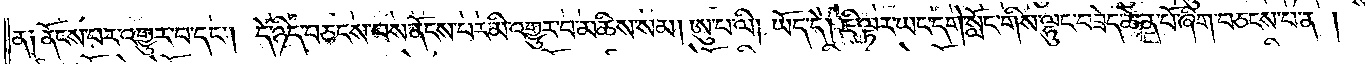ན༑ ནོངས་པར་འགྱུར་བ་དང༌། དེ་ཉིད་བཅངས་བས་ནོངས་པར་མི་འགྱུར་བ་མཆིས་སམ། ཨུ་པ་ལི། ཡོད་དེ། ཇི་ལྟར་ཡང་དགེ་སློང་གིས་ལྷུང་བཟེད་ཆེན་པོ་ཞིག་བཅངས་པ་ན།
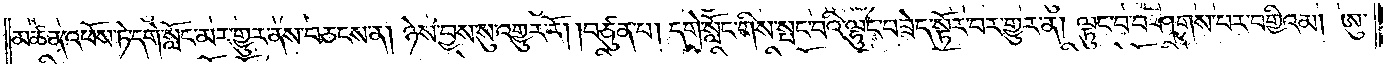མཚན་འཕོས་ཏེ་དགེ་སློང་མར་གྱུར་ནས་བཅངས་ན། ཉེས་བྱས་སུ་འགྱུར་རོ། །བཙུན་པ། དགེ་སློང་གིས་སྤང་བའི་ལྟུང་བཟེད་སྟོར་བར་གྱུར་ན། ལྟུང་བ་བཤགས་པར་བགྱིའམ། ཨུ་
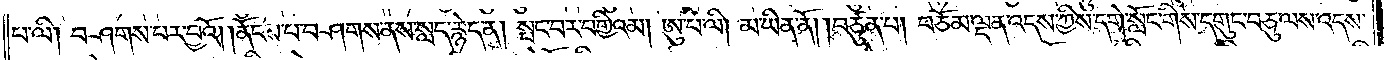པ་ལི། བཤགས་པར་བྱའོ། །ནོངས་པ་བཤགས་ནས་སླད་རྙེད་ན། སྤང་བར་བགྱིའམ། ཨུ་པ་ལི། མ་ཡིན་ནོ། །བཙུན་པ། བཅོམ་ལྡན་འདས་ཀྱིས་དགེ་སློང་གིས་དགུང་བཅུ་ལས་འདས་
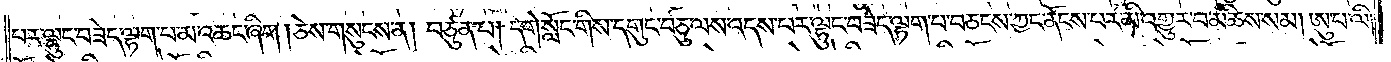པར་ལྷུང་བཟེད་ལྷག་པ་མ་འཆང་ཞིག །ཅེས་གསུངས་ན། བཙུན་པ། དགེ་སློང་གིས་དགུང་བཅུ་ལས་འདས་པར་ལྷུང་བཟེད་ལྷག་པ་བཅངས་ཀྱང་ནོངས་པར་མི་འགྱུར་བ་མཆིས་སམ། ཨུ་པ་ལི་
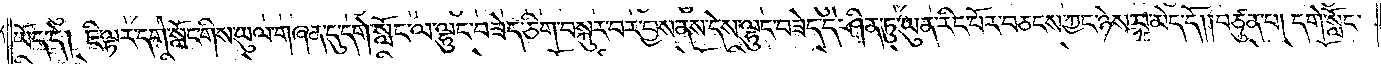ཡོད་དེ། ཇི་ལྟར་དགེ་སློང་གིས་ཡུལ་གཞན་དུ་དགེ་སློང་ལ་ལྷུང་བཟེད་ཅིག་བསྐུར་བར་བྱས་ནས་དེས་ལྷུང་བཟེད་དེ་ཤིན་ཏུ་ཡུན་རིང་པོར་བཅངས་ཀྱང་ཉེས་པ་མེད་དོ། །བཙུན་པ། དགེ་སློང་
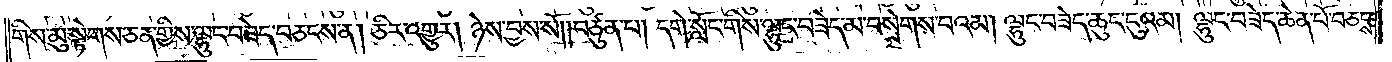གིས་མུ་སྟེགས་ཅན་གྱིས་ལྷུང་བཟེད་བཅངས་ན། ཅིར་འགྱུར། ཉེས་བྱས་སོ། །བཙུན་པ། དགེ་སློང་གིས་ལྷུང་བཟེད་མ་བསྲེགས་པའམ། ལྷུང་བཟེད་ཆུང་ངུའམ། ལྷུང་བཟེད་ཆེན་པོ་བཅངས་
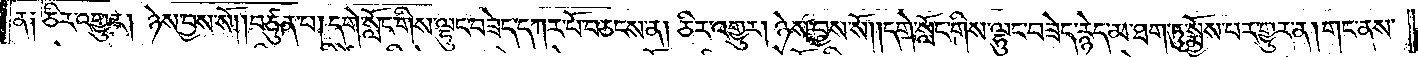ན༑ ཅིར་འགྱུར། ཉེས་བྱས་སོ། །བཙུན་པ། དགེ་སློང་གིས་ལྷུང་བཟེད་དཀར་པོ་བཅངས་ན། ཅིར་འགྱུར། ཉེས་བྱས་སོ། །དགེ་སློང་གིས་ལྷུང་བཟེད་རྙེད་མ་ཐག་ཏུ་སྨྱོས་པར་གྱུར་ན། གང་ནས་
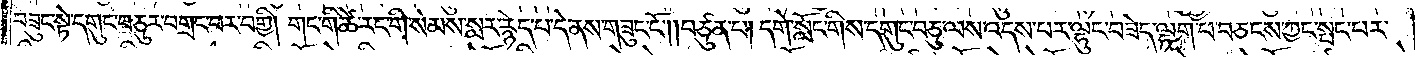བཟུང་སྟེ་དགུང་བཅུར་བགྲང་བར་བགྱི། གང་གི་ཚེ་རང་གི་སེམས་སླར་རྙེད་པ་དེ་ནས་གཟུང་ངོ༌། །བཙུན་པ། དགེ་སློང་གིས་དགུང་བཅུ་ལས་འདས་པར་ལྷུང་བཟེད་ལྷག་པ་བཅངས་ཀྱང་སྤང་པར་
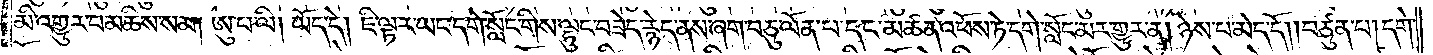མི་འགྱུར་བ་མཆིས་སམ། ཨུ་པ་ལི། ཡོད་དེ། ཇི་ལྟར་ཡང་དགེ་སློང་གིས་ལྷུང་བཟེད་རྙེད་ནས་ཞག་བཅུ་ལོན་པ་དང་མཚན་འཕོས་ཏེ་དགེ་སློང་མར་གྱུར་ན། ཉེས་པ་མེད་དོ། །བཙུན་པ། དགེ་
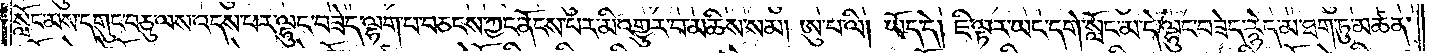སློང་མས་དགུང་བཅུ་ལས་འདས་པར་ལྷུང་བཟེད་ལྷག་པ་བཅངས་ཀྱང་ནོངས་པར་མི་འགྱུར་བ་མཆིས་སམ། ཨུ་པ་ལི། ཡོད་དེ། ཇི་ལྟར་ཡང་དགེ་སློང་མ་དེ་ལྷུང་བཟེད་རྙེད་མ་ཐག་ཏུ་མཚན་
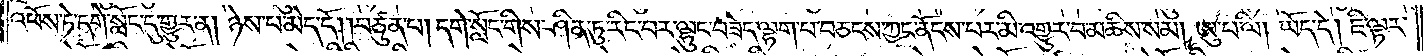འཕོས་ཏེ་དགེ་སློང་དུ་གྱུར་ན། ཉེས་པ་མེད་དོ། །བཙུན་པ། དགེ་སློང་གིས་ཤིན་ཏུ་རིང་བར་ལྷུང་བཟེད་ལྷག་པ་བཅངས་ཀྱང་ནོངས་པར་མི་འགྱུར་བ་མཆིས་སམ། ཨུ་པ་ལི། ཡོད་དེ། ཇི་ལྟར་
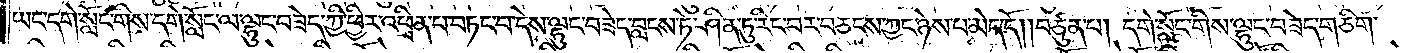ཡང་དགེ་སློང་གིས་དགེ་སློང་ལ་ལྷུང་བཟེད་ཀྱི་ཕྱིར་འཕྲིན་པ་བཏང་བ་དེས་ལྷུང་བཟེད་བླངས་ཏེ་ཤིན་ཏུ་རིང་བར་བཅངས་ཀྱང་ཉེས་པ་མེད་དོ། །བཙུན་པ། དགེ་སློང་གིས་ལྷུང་བཟེད་གཅིག་
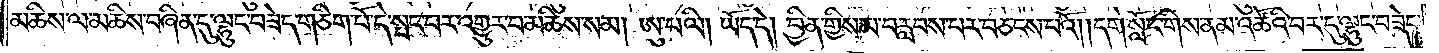མཆིས་ལ་མཆིས་བཞིན་དུ་ལྷུང་བཟེད་གཅིག་པོ་དེ་སྤང་བར་འགྱུར་བ་མཆིས་སམ། ཨུ་པ་ལི། ཡོད་དེ། བྱིན་གྱིས་མ་བརླབས་པར་བཅངས་པའོ། །དགེ་སློང་གིས་ནམ་འཚོའི་བར་དུ་ལྷུང་བཟེད་
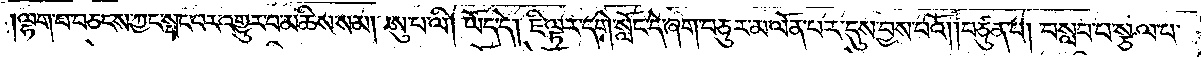།ལྷག་པ་བཅངས་ཀྱང་སྤང་བར་འགྱུར་བ་མཆིས་སམ། ཨུ་པ་ལི། ཡོད་དེ། ཇི་ལྟར་དགེ་སློང་དེ་ཞག་བཅུར་མ་ལོན་པར་དུས་བྱས་པའོ། །བཙུན་པ། བསླབ་པ་སྩལ་པ་
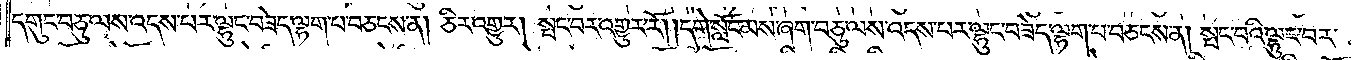དགུང་བཅུ་ལས་འདས་པར་ལྷུང་བཟེད་ལྷག་པ་བཅངས་ན། ཅིར་འགྱུར། སྤང་བར་འགྱུར་རོ། །དགེ་སློང་མས་ཞག་བཅུ་ལས་འདས་པར་ལྷུང་བཟེད་ལྷག་པ་བཅངས་ན། སྤང་བའི་ལྷུང་བར་
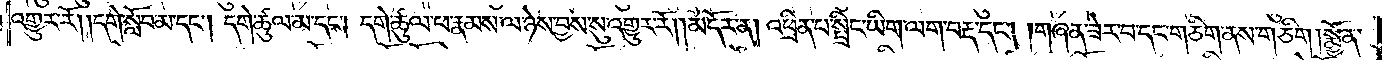འགྱུར་རོ། །དགེ་སློབ་མ་དང༌། དགེ་ཚུལ་མ་དང༌། དགེ་ཚུལ་ཕ་རྣམས་ལ་ཉེས་བྱས་སུ་འགྱུར་རོ། །མདོར་ན། འཕྲིན་པ་སྤྲིང་ཡིག་ལག་བརྡ་དང༌། །གཞན་ཟེར་བ་དང་གཅིག་ནས་གཅིག །སྨྱོན་
